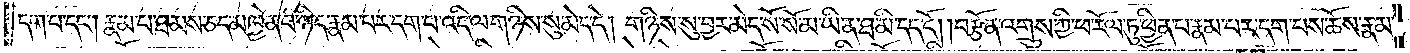དག་པ་དང༌། རྣམ་པ་ཐམས་ཅད་མཁྱེན་པ་ཉིད་རྣམ་པར་དག་པ་འདི་ལ་གཉིས་སུ་མེད་དེ། གཉིས་སུ་བྱར་མེད་སོ་སོ་མ་ཡིན་ཐ་མི་དད་དོ། །བརྩོན་འགྲུས་ཀྱི་ཕ་རོལ་ཏུ་ཕྱིན་པ་རྣམ་པར་དག་པས་ཆོས་རྣམ་
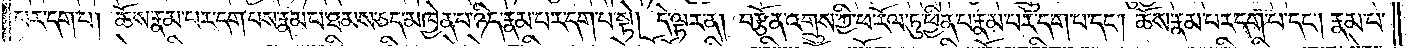པར་དག་པ། ཆོས་རྣམ་པར་དག་པས་རྣམ་པ་ཐམས་ཅད་མཁྱེན་པ་ཉིད་རྣམ་པར་དག་པ་སྟེ། དེ་ལྟར་ན། བརྩོན་འགྲུས་ཀྱི་ཕ་རོལ་ཏུ་ཕྱིན་པ་རྣམ་པར་དག་པ་དང༌། ཆོས་རྣམ་པར་དག་པ་དང༌། རྣམ་པ་
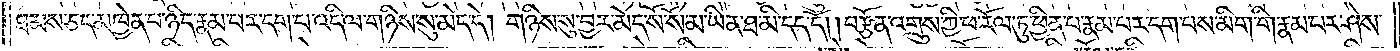ཐམས་ཅད་མཁྱེན་པ་ཉིད་རྣམ་པར་དག་པ་འདི་ལ་གཉིས་སུ་མེད་དེ། གཉིས་སུ་བྱར་མེད་སོ་སོ་མ་ཡིན་ཐ་མི་དད་དོ། །བརྩོན་འགྲུས་ཀྱི་ཕ་རོལ་ཏུ་ཕྱིན་པ་རྣམ་པར་དག་པས་མིག་གི་རྣམ་པར་ཤེས་
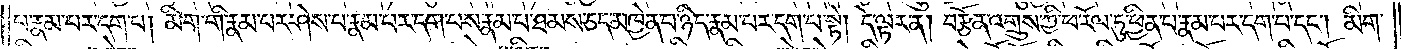པ་རྣམ་པར་དག་པ། མིག་གི་རྣམ་པར་ཤེས་པ་རྣམ་པར་དག་པས་རྣམ་པ་ཐམས་ཅད་མཁྱེན་པ་ཉིད་རྣམ་པར་དག་པ་སྟེ། དེ་ལྟར་ན་བརྩོན་འགྲུས་ཀྱི་ཕ་རོལ་ཏུ་ཕྱིན་པ་རྣམ་པར་དག་པ་དང༌། མིག་
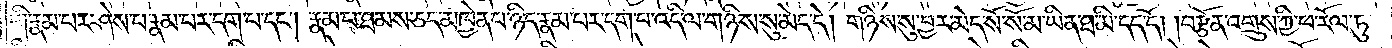གི་རྣམ་པར་ཤེས་པ་རྣམ་པར་དག་པ་དང༌། རྣམ་པ་ཐམས་ཅད་མཁྱེན་པ་ཉིད་རྣམ་པར་དག་པ་འདི་ལ་གཉིས་སུ་མེད་དེ། གཉིས་སུ་བྱར་མེད་སོ་སོ་མ་ཡིན་ཐ་མི་དད་དོ༑ ༑བརྩོན་འགྲུས་ཀྱི་ཕ་རོལ་ཏུ་
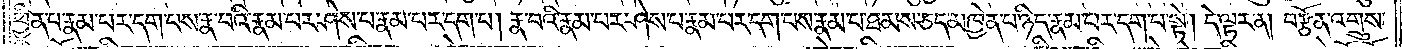ཕྱིན་པ་རྣམ་པར་དག་པས་རྣ་པའི་རྣམ་པར་ཤེས་པ་རྣམ་པར་དག་པ། རྣ་པའི་རྣམ་པར་ཤེས་པ་རྣམ་པར་དག་པས་རྣམ་པ་ཐམས་ཅད་མཁྱེན་པ་ཉིད་རྣམ་པར་དག་པ་སྟེ། དེ་ལྟར་ན། བརྩོན་འགྲུས་
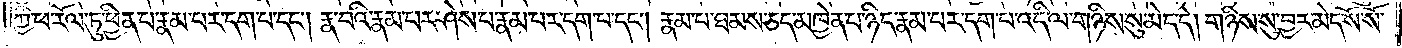ཀྱི་ཕ་རོལ་ཏུ་ཕྱིན་པ་རྣམ་པར་དག་པ་དང༌། རྣ་བའི་རྣམ་པར་ཤེས་པ་རྣམ་པར་དག་པ་དང༌། རྣམ་པ་ཐམས་ཅད་མཁྱེན་པ་ཉིད་རྣམ་པར་དག་པ་འདི་ལ་གཉིས་སུ་མེད་དེ། གཉིས་སུ་བྱར་མེད་སོ་སོ་
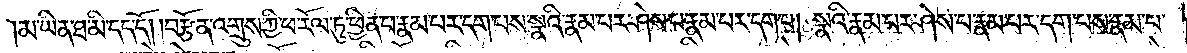མ་ཡིན་ཐ་མི་དད་དོ། །བརྩོན་འགྲུས་ཀྱི་ཕ་རོལ་ཏུ་ཕྱིན་པ་རྣམ་པར་དག་པས་སྣའི་རྣམ་པར་ཤེས་པ་རྣམ་པར་དག་པ། སྣའི་རྣམ་པར་ཤེས་པ་རྣམ་པར་དག་པས་རྣམ་པ་
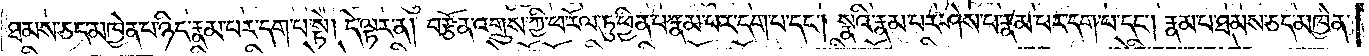ཐམས་ཅད་མཁྱེན་པ་ཉིད་རྣམ་པར་དག་པ་སྟེ། དེ་ལྟར་ན། བརྩོན་འགྲུས་ཀྱི་ཕ་རོལ་ཏུ་ཕྱིན་པ་རྣམ་པར་དག་པ་དང༌། སྣའི་རྣམ་པར་ཤེས་པ་རྣམ་པར་དག་པ་དང༌། རྣམ་པ་ཐམས་ཅད་མཁྱེན་
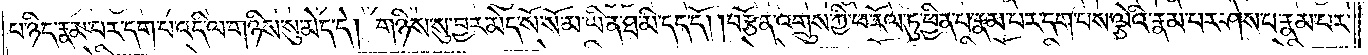པ་ཉིད་རྣམ་པར་དག་པ་འདི་ལ་གཉིས་སུ་མེད་དེ། གཉིས་སུ་བྱར་མེད་སོ་སོ་མ་ཡིན་ཐ་མི་དད་དོ། །བརྩོན་འགྲུས་ཀྱི་ཕ་རོལ་ཏུ་ཕྱིན་པ་རྣམ་པར་དག་པས་ལྕེའི་རྣམ་པར་ཤེས་པ་རྣམ་པར་
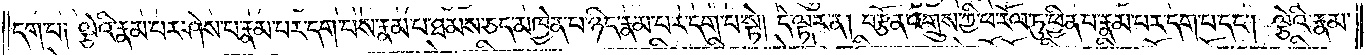དག་པ། ལྕེའི་རྣམ་པར་ཤེས་པ་རྣམ་པར་དག་པས་རྣམ་པ་ཐམས་ཅད་མཁྱེན་པ་ཉིད་རྣམ་པར་དག་པ་སྟེ། དེ་ལྟར་ན། བརྩོན་འགྲུས་ཀྱི་ཕ་རོལ་ཏུ་ཕྱིན་པ་རྣམ་པར་དག་པ་དང༌། ལྕེའི་རྣམ་
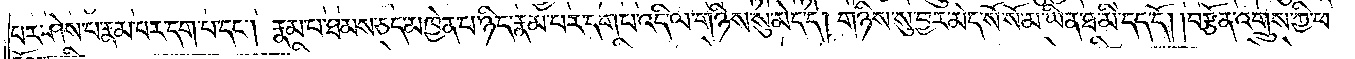པར་ཤེས་པ་རྣམ་པར་དག་པ་དང༌། རྣམ་པ་ཐམས་ཅད་མཁྱེན་པ་ཉིད་རྣམ་པར་དག་པ་འདི་ལ་གཉིས་སུ་མེད་དེ། གཉིས་སུ་བྱར་མེད་སོ་སོ་མ་ཡིན་ཐ་མི་དད་དོ། །བརྩོན་འགྲུས་ཀྱི་ཕ་
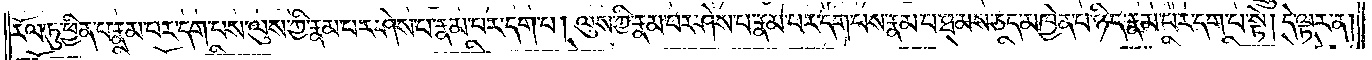རོལ་ཏུ་ཕྱིན་པ་རྣམ་པར་དག་པས་ལུས་ཀྱི་རྣམ་པར་ཤེས་པ་རྣམ་པར་དག་པ། ལུས་ཀྱི་རྣམ་པར་ཤེས་པ་རྣམ་པར་དག་པས་རྣམ་པ་ཐམས་ཅད་མཁྱེན་པ་ཉིད་རྣམ་པར་དག་པ་སྟེ། དེ་ལྟར་ན།
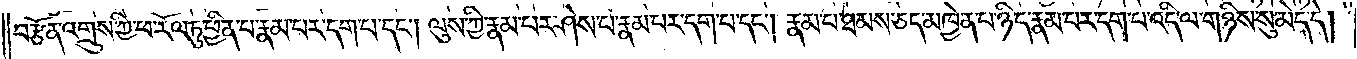བརྩོན་འགྲུས་ཀྱི་ཕ་རོལ་ཏུ་ཕྱིན་པ་རྣམ་པར་དག་པ་དང༌། ལུས་ཀྱི་རྣམ་པར་ཤེས་པ་རྣམ་པར་དག་པ་དང༌། རྣམ་པ་ཐམས་ཅད་མཁྱེན་པ་ཉིད་རྣམ་པར་དག་པ་འདི་ལ་གཉིས་སུ་མེད་དེ།
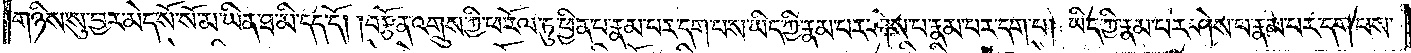གཉིས་སུ་བྱར་མེད་སོ་སོ་མ་ཡིན་ཐ་མི་དད་དོ། །བརྩོན་འགྲུས་ཀྱི་ཕ་རོལ་ཏུ་ཕྱིན་པ་རྣམ་པར་དག་པས་ཡིད་ཀྱི་རྣམ་པར་ཤེས་པ་རྣམ་པར་དག་པ། ཡིད་ཀྱི་རྣམ་པར་ཤེས་པ་རྣམ་པར་དག་པས་
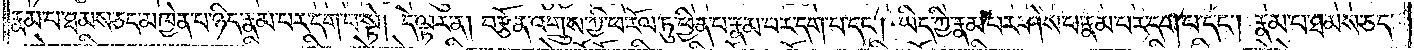རྣམ་པ་ཐམས་ཅད་མཁྱེན་པ་ཉིད་རྣམ་པར་དག་པ་སྟེ། དེ་ལྟར་ན། བརྩོན་འགྲུས་ཀྱི་ཕ་རོལ་ཏུ་ཕྱིན་པ་རྣམ་པར་དག་པ་དང༌། ཡིད་ཀྱི་རྣམ་པར་ཤེས་པ་རྣམ་པར་དག་པ་དང༌། རྣམ་པ་ཐམས་ཅད་
